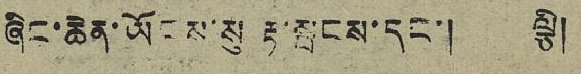ཞིང་ཆེན་ཡོངས་སུ རྟ་སྦངས་དང་། ལྕི།
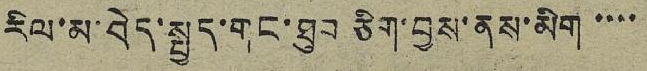རིལ་མ་བེད་སྤྱད་གང་ཐུབ ཅིག་བྱས་ནས་མིག་་་་
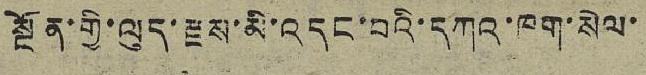སྔོན་གྱི་ལུད་རྫས་མི་འདང་བའི་དཀའ་ཁག་སེལ་
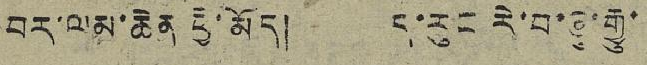བར་ལམ་ཆེན ཕྱི་མོད། ད་རུང རེ་བ་ཞུ་རྒྱུ་
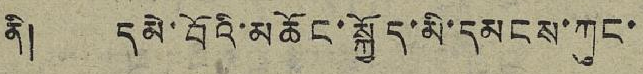ནི། དམེ་བོའི་མཆོང་སྐྱོད་མི་དམངས་ཀུང་
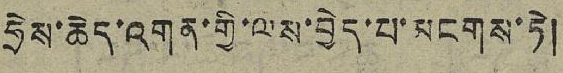ཧྲེས་ཆེད་འགན་གྱི་ལས་བྱེད་པ་མངགས་ཏེ།
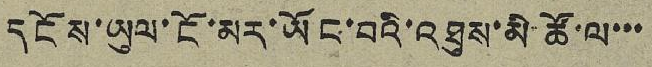དངོས་ཡུལ་ངོ་མར་ཡོང་བའི་འཐུས་མི་ཚོ་ལ་་་
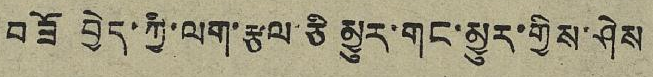བཟོ བྱེད་ཀྱི་ལག་རྩལ་ཅི མྱུར་གང་མྱུར་གྱིས་ཤེས
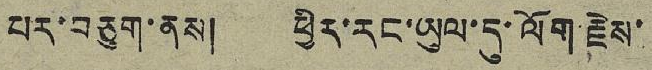པར་བཅུག་ནས། ཕྱིར་རང་ཡུལ་དུ་ལོག་རྗེས་
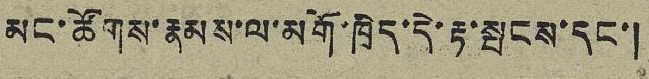མང་ཚོགས་རྣམས་ལ་མགོ་ཁྲིད་དེ་རྟ་སྤངས་དང་།
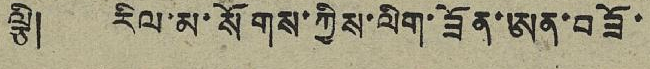ལྕི། རིལ་མ་སོགས་ཀྱིས་ལིག་ཟོན་ཨན་བཟོ་
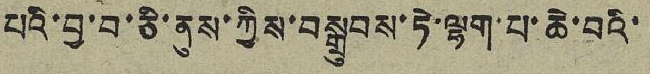པའི་བྱ་བ་ཅི་ནུས་ཀྱིས་བསྒྲུབས་ཏེ་ལྷག་པ་ཆེ་བའི་
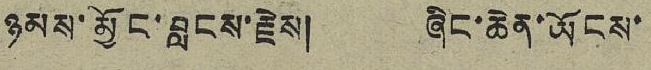ཉམས་མྱོང་བླངས་རྗེས། ཞིང་ཆེན་ཡོངས་
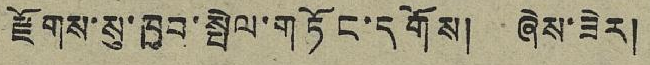རྫོགས་སུ་ཁྱབ་སྤེལ་གཏོང་དགོས། ཞེས་ཟེར།
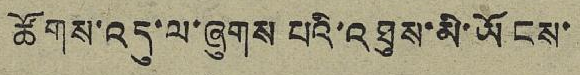ཚོགས་འདུ་ལ་ཞུགས་པའི་འཐུས་མི་ཡོངས་
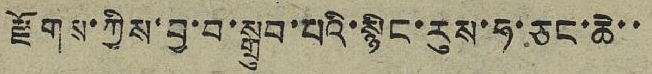རྫོགས་ཀྱིས་བྱ་བ་སྒྲུབ་པའི་སྙིང་རུས་ཧ་ཅང་ཆེ་་
